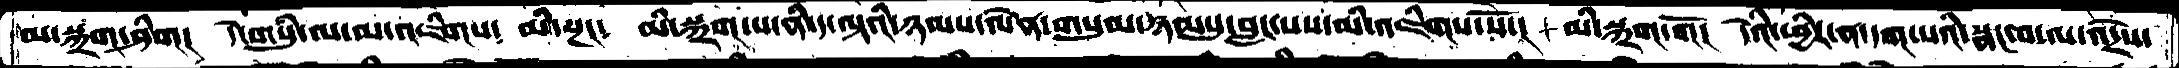མ་སྐྲག་ཤིག། དེ་གསུཾ་ལ་མ་འཇིགས༴ མི་སྔང༴ མི་སྐྲག་པ་ནི་ད་ལྟའི་ཉམས་ལེན་གསུམ་ཉམསུ་བླང་པས་མི་འཇིགས་སོ་། མི་སྐྲག་གོ། དེའི་ཕྱིར་ན་དག་པའི་སྣང་བ་ལ་འདྲེས་
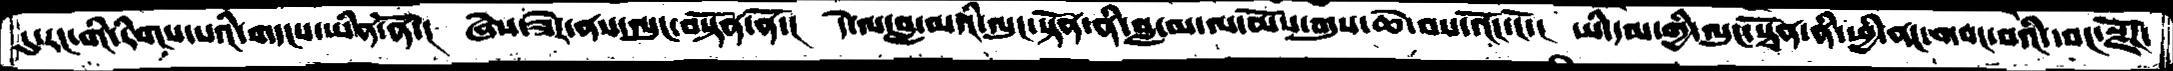དུ་རང་གི་རིགས་པའི་གདངས་ཡིན་ནོ་།  ཞེས་ཟེར་ནས་ལུང་བསྟོན་ནོ་།  དེ་ལ་བླ་མའི་ལུང་སྟོན་ནི་བླ་མ་ལ་མོས་གུས་ཆེ་བས་འོང་ངོ་།  ཡི་དམ་གྱི་ལུང་སྟོན་ནི་ཕྱི་ནང་གསང་བའི་དབང་སྫོཌ་
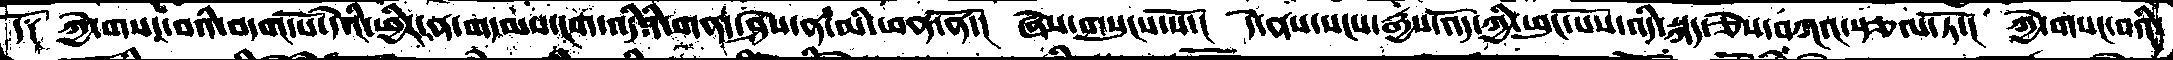དོ༑  ཀྱེ་གསང་བའི་བདག་པོ་དེའི་ཕྱིར་ན་གདམས་ངག་འདིའི་གནད་ཤེས་ན་མི་ཕན་ནོ་།  ཞེས་གསུངས་སོ་།  དེ་ནས་སངས་རྒྱས་འོད་ཀྱི་ཕུང་པོས་འདི་སྐད་ཅེས་བཀའ་སྩལ་ཏོ་།  ཀྱེ་གསང་བའི་
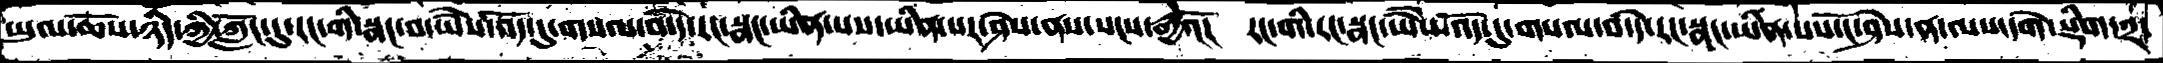ཡུལ་ཆོས་ཉིད་ཀྱི་ཀློང་དུ་རང་གི་སྣང་བ་ཡཻས་འོད་དུ་གསལ་བ་དེ་རང་སྣང་ཡིན་པས་ཡིན་པར་ཤེས་ནས་སངས་རྒྱའོ།  རང་གི་རང་སྣང་ཡཻས་འོད་དུ་་གསལ་བ་དེ་རང་སྣང་ཡིན་པས་ངོ་ཤེས་ན་ལས་དགེ་སྡིག་༢་
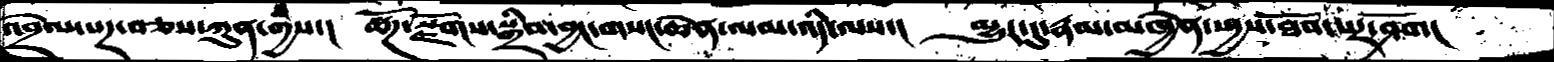འབྲེལ་པར་བཅས་ཀུན་གྱིས་།  ཚོཌ་སྫོགས་སྒྲིབ་བྱང་གསང་ཆེན་ལམ་འདི་ལས་།  མྱུར་དུ་རྣམ་མཁྱེན་སདྱས་ཐོབ་པར་ཤོག།
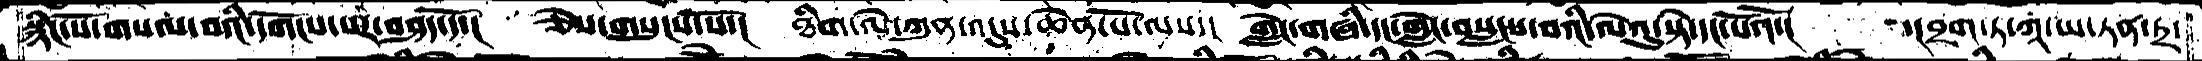སྙིང་པོ་གསལ་བའི་དགོངས་པར་བཤད་དོ་།  ཅེས་གསུངས་སོ་།  ཐིག་ལེ་ཀུན་འདུས་ཆེན་པོ་ལས་།  གླེང་གཞི་དང་གླེང་བསླངས་བའི་ལེའུ་སྟེ་དང་པོའོ་།  ་།བྲག་ཏ་ཀཱ་ཡ་ཏན་ཏྲ་
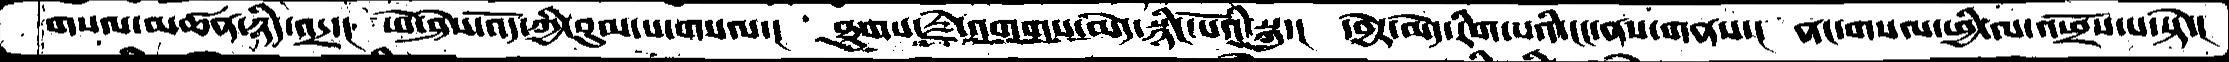གསལ་མཚན་ཉིད་འདྲ་།  ཡེ་ཤེས་འོད་ཀྱི་བུམ་པ་གསལ་།  ཐུགས་རྗེ་འགགས་མེད་སྙིང་པོའི་སྐུ་།  དབྱེར་མེད་རིག་པའི་ངང་ནས་གནས་།  ནང་གསལ་ཕྱི་ལ་འཕྲོས་པ་སྟེ་།
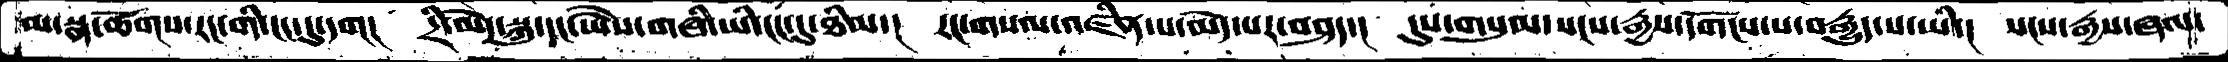ལ་སྣ་ཚོགས་རང་གི་ངང་དུ་དག།  དྲི་མེད་སྐུ་དང་ཡཻས་གཞི་ཡི་ངང་དུ་ཐིམ་།  རང་གསལ་འཛིན་པ་མེད་པར་བཤད་།  དུས་གསུམ་སངས་རྒྱས་དགོངས་པ་བརྒྱུད་པ་ཡི་།  སངས་རྒྱས་ཞལ་
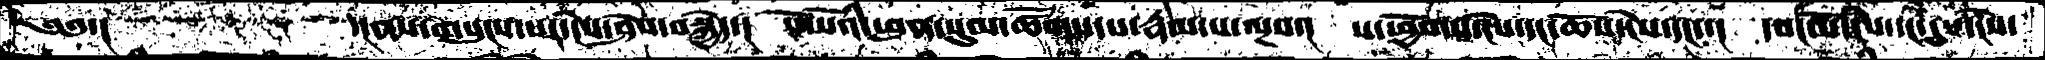༄༅་།  ་།ནས་གསུངས་པར་ངེས་ཤེས་བསྐྱེད་།  དངོས་པོའི་ཕུན་སུམ་ཚོགས་པ་རྣམ་པ་ལྔས་།  ས་ཕྱོགས་ངེས་དང་ཆོས་ངེས་དང་་། དབང་པོ་རེས་དང་དུས་ངེས་
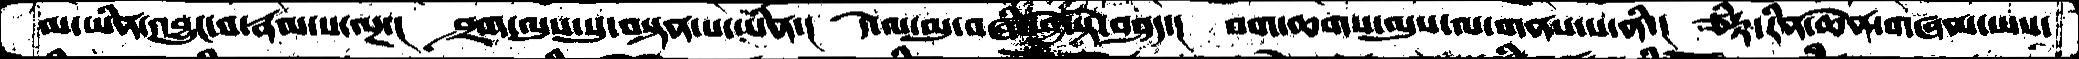མ་ཡིན་འབྱུང་བ་རྣམ་པ་ལྔ་།  ཤྲག་ལུས་སུ་བསྟན་པ་ཡིན་།  དེ་ལ་མུ་བཞི་ཕྱེ་སྟེ་བཤད་།  བག་ཆགས་ལུས་ལ་གནས་པནི་།  ཙིཏྟ་རིན་ཆེན་གཞལ་ཡས་
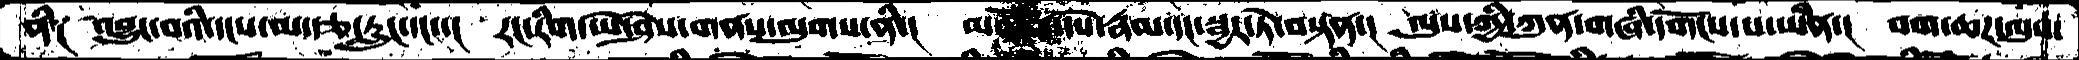ནི༑  འབྱུང་བའི་དངས་མ་རྩ་རླུང་དང་་།  རང་རིག་ཡེ་ཤེས་གནས་ལུགས་ནི་།  མཚོན་དཔེ་རྣམ་དང་སྦྱར་ཏེ་བསྟན་།  ལུས་ཀྱི་ཀུན་གཞི་དགོངས་པ་ཡིན་།  བག་ཆཌ་ལུས་
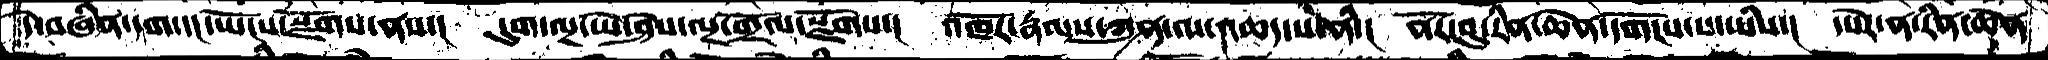དེ་བཞིན་དག་དང་ཡོངས་སྫོགས་ནས་།  དུག་ལྔ་ཡེ་ཤེས་ལྔ་གྲོལ་སྫོགས་།   འཁོར་རྣམས་ཀུན་ལ་འཆད་པ་ནི་།  ནོར་བུ་རིན་ཆེན་དགོངས་པ་ཡིས་།  དཔེར་ན་རིན་ཆེན
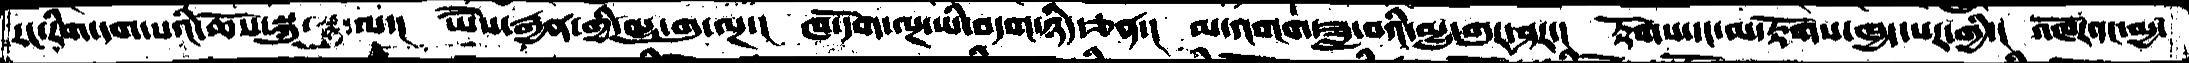རང་རིག་དག་པའི་ཆོས་སྐུ་ལ་།  ཡཻས་རྒྱན་གྱི་མྱུ་གུ་ལྔ་།  ཁ་དོག་ལྔ་ཡི་བདག་ཉིད་ཅན་།  མ་འགག་ཟླ་བའི་མྱུ་གུར་ཤར་།  རྟོགས་དང་མ་རྟོགས་ཁྱད་པར་གྱི་།  འཁོར་དང་མྱ་
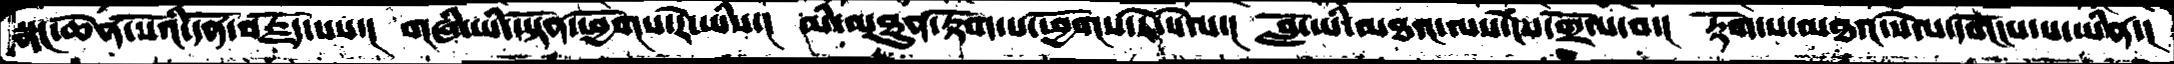སྣང་ཆེན་པོའི་དོན་བརྗོད་པས་།  གཞི་ཡི་ཡྟོན་ཕྱོགས་རེ་ཡིས་།  མི་མཐུན་རྟོག་པ་ཕྱོགས་རེ་སེལ་།  བློ་ཡི་མཐའ་ལས་ངེས་གྲོལ་བ་།  རྟོག་པ་མཐའ་སེལ་དགོངས་པ་ཡིན་།
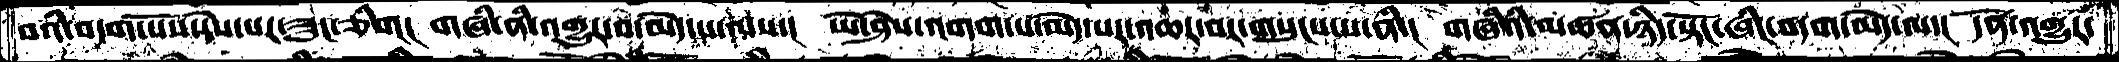བའི་བདག་པོས་ངེས་པར་ཟུང་ཅིག།  གཞི་ནི་འགྱུར་བ་མེད་པ་ལས་།  ཡེ་ཤེས་འགག་པ་མེད་པར་འཆར་བར་གསུངས་པ་ནི་།  གཞིའི་མཚན་ཉིད་སྟོང་ཞིང་བདག་མེད་ལ་།  དོན་འགྱུར་
